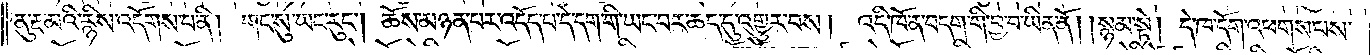ནུ་རྔ་མའི་རྙིས་འདོགས་པ་ནི། གང་སུ་ཡང་རུང༌། ཆོས་མཉན་པར་འདོད་པ་དེ་དག་གི་ཡང་བར་ཆད་དུ་འགྱུར་བས། འདི་ཁོ་ན་བདག་གི་བྱ་བ་ཡིན་ནོ། །སྙམ་སྟེ། དེ་ཁ་དོག་འཕགས་པས་
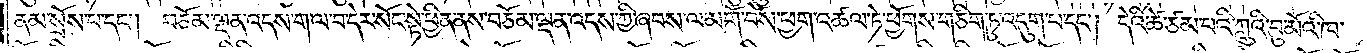ནམ་སྲོས་པ་དང༌། བཅོམ་ལྡན་འདས་ག་ལ་བ་དེར་སོང་སྟེ་ཕྱིན་ནས་བཅོམ་ལྡན་འདས་ཀྱི་ཞབས་ལ་མགོ་བོས་ཕྱག་འཚལ་ཏེ་ཕྱོགས་གཅིག་ཏུ་འདུག་པ་དང༌། དེའི་ཚེ་ཙམ་པའི་ཀླུའི་བུ་མོའི་ཁ་
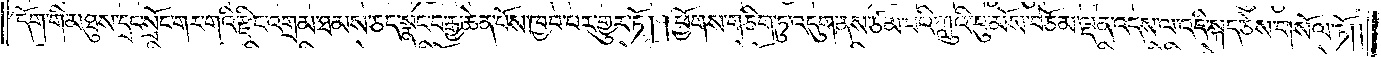དོག་གི་མཐུས་དྲང་སྲོང་གར་གའི་རྫིང་འགྲམ་ཐམས་ཅད་སྣང་བ་རྒྱ་ཆེན་པོས་ཁྱབ་པར་གྱུར་ཏོ། །ཕྱོགས་གཅིག་ཏུ་འདུག་ནས་ཙམ་པའི་ཀླུའི་བུ་མོས་བཅོམ་ལྡན་འདས་ལ་འདི་སྐད་ཅེས་གསོལ་ཏོ། །
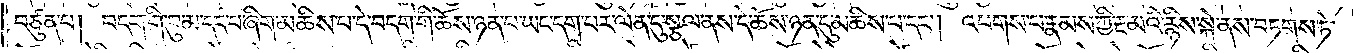བཙུན་པ། བདག་གི་བུ་མ་དད་པ་ཞིག་མཆིས་པ་དེ་བདག་གི་ཆོས་ཉན་པ་ཡང་དག་པར་ལེན་དུ་སྩལ་ནས་དེ་ཆོས་ཉན་དུ་མཆིས་པ་དང༌། འཕགས་པ་རྣམས་ཀྱི་རྔ་མའི་རྙིས་སྐེ་ནས་བཏགས་ཏེ་
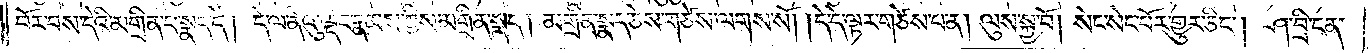བོར་བས་དེའི་མགྲིན་པ་སྣད་དེ། དེ་ལ་ནེའུ་ལྡང་རྣམས་ཀྱིས་མགྲིན་སྣད། མགྲིན་སྣད་ཅེས་གཙེས་ལགས་སོ། །དེ་དེ་ལྟར་གཙེས་པ་ན། ལུས་སྐྱ་བོ། སེང་སེང་པོར་གྱུར་ཅིང༌། ཤ་བྲི་ངན་
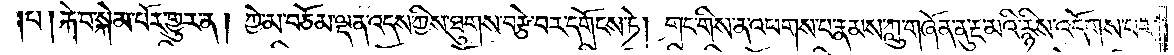པ། རྐེ་བ་སྐེམ་པོར་གྱུར་ན། ཀྱེ་མ་བཅོམ་ལྡན་འདས་ཀྱིས་ཐུགས་བརྩེ་བར་དགོངས་ཏེ། གང་གིས་ན་འཕགས་པ་རྣམས་ཀླུ་གཞོན་ནུ་རྔ་མའི་རྙིས་འདོགས་པར་
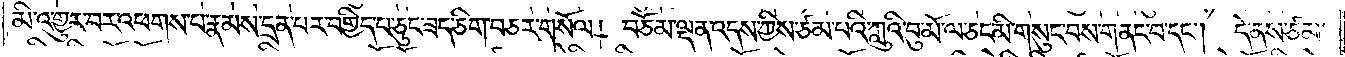མི་འགྱུར་བར་འཕགས་པ་རྣམས་དྲན་པར་བགྱིད་པ་ཅུང་ཟད་ཅིག་བཅར་གསོལ། བཅོམ་ལྡན་འདས་ཀྱིས་ཙམ་པའི་ཀླུའི་བུ་མོ་ལ་ཅང་མི་གསུང་བས་གནང་བ་དང༌། དེ་ནས་ཙམ་
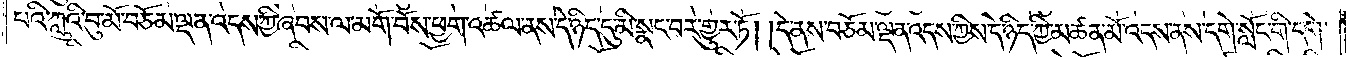པའི་ཀླུའི་བུ་མོ་བཅོམ་ལྡན་འདས་ཀྱི་ཞབས་ལ་མགོ་བོས་ཕྱག་འཚལ་ནས་དེ་ཉིད་དུ་མི་སྣང་བར་གྱུར་ཏོ། །དེ་ནས་བཅོམ་ལྡན་འདས་ཀྱིས་དེ་ཉིད་ཀྱི་མཚན་མོ་འདས་ནས་དགེ་སློང་གི་དགེ་
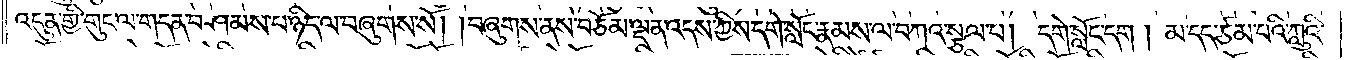འདུན་གྱི་གུང་ལ་གདན་བཤམས་པ་ཉིད་ལ་བཞུགས་སོ། །བཞུགས་ནས་བཅོམ་ལྡན་འདས་ཀྱིས་དགེ་སློང་རྣམས་ལ་བཀའ་སྩལ་པ། དགེ་སློང་དག ། མ་དད་ཙམ་པའི་ཀླུའི་
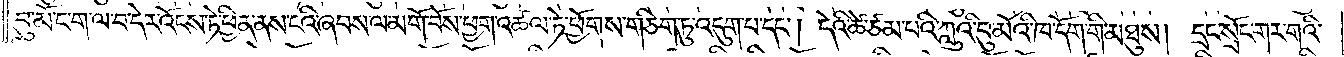བུ་མོ་ང་ག་ལ་བ་དེར་འོངས་ཏེ་ཕྱིན་ནས་ངའི་ཞབས་ལ་མགོ་བོས་ཕྱག་འཚལ་ཏེ་ཕྱོགས་གཅིག་ཏུ་འདུག་པ་དང༌། དེའི་ཚེ་ཙམ་པའི་ཀླུའི་བུ་མོའི་ཁ་དོག་གི་མཐུས། དྲང་སྲོང་གར་གའི་
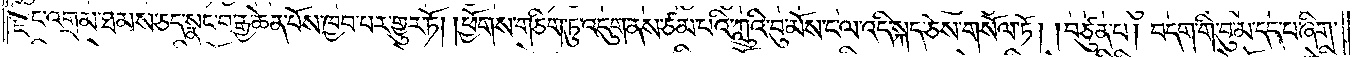རྫིང་འགྲམ་ཐམས་ཅད་སྣང་བ་རྒྱ་ཆེན་པོས་ཁྱབ་པར་གྱུར་ཏོ། །ཕྱོགས་གཅིག་ཏུ་འདུག་ནས་ཙམ་པའི་ཀླུའི་བུ་མོས་ང་ལ་འདི་སྐད་ཅེས་གསོལ་ཏོ། །བཙུན་པ། བདག་གི་བུ་མ་དད་པ་ཞིག་
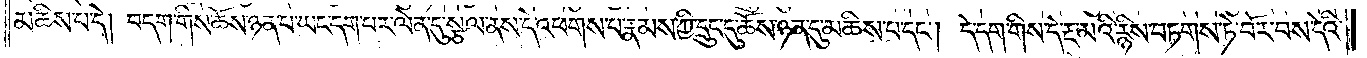མཆིས་པ་དེ། བདག་གིས་ཆོས་ཉན་པ་ཡང་དག་པར་ལེན་དུ་སྩལ་ནས་དེ་འཕགས་པ་རྣམས་ཀྱི་དྲུང་དུ་ཆོས་ཉན་དུ་མཆིས་པ་དང༌། དེ་དག་གིས་དེ་རྔ་མའི་རྙིས་བཏགས་ཏེ་བོར་བས་དེའི་
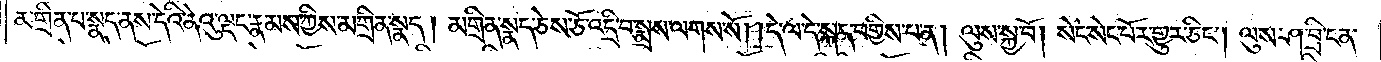མགྲིན་པ་སྣད་ནས་དེའི་ནེའུ་ལྡང་རྣམས་ཀྱིས་མགྲིན་སྣད། མགྲིན་སྣད་ཅེས་ཅོ་འདྲི་བ་སྨྲས་ལགས་སོ། །དེ་ལ་དེ་སྐད་བགྱིས་པ་ན། ལུས་སྐྱ་བོ། སེང་སེང་པོར་གྱུར་ཅིང༌། ལུས་ཤ་བྲི་ངན་
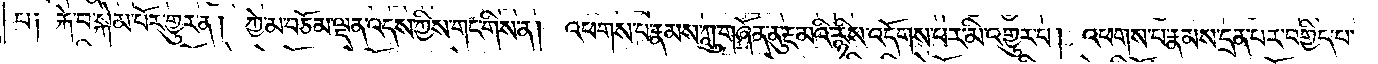པ༑ རྐེ་བ་སྐེམ་པོར་གྱུར་ན། ཀྱེ་མ་བཅོམ་ལྡན་འདས་ཀྱིས་གང་གིས་ན། འཕགས་པ་རྣམས་ཀླུ་གཞོན་ནུ་རྔ་མའི་རྙིས་འདོགས་པར་མི་འགྱུར་པ། འཕགས་པ་རྣམས་དྲན་པར་བགྱིད་པ་
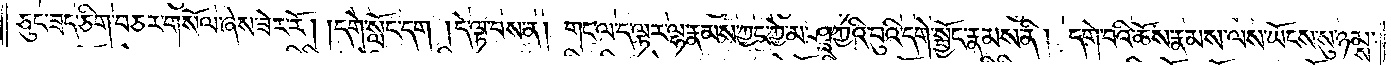ཅུང་ཟད་ཅིག་བཅར་གསོལ་ཞེས་ཟེར་རོ། །དགེ་སློང་དག །དེ་ལྟ་བས་ན། གང་ལ་ད་ལྟར་ལྷ་རྣམས་ཀྱང་ཀྱེ་མ་ཤཱཀྱའི་བུའི་དགེ་སྦྱོང་རྣམས་ནི། དགེ་བའི་ཆོས་རྣམས་ལས་ཡོངས་སུ་ཉམས་
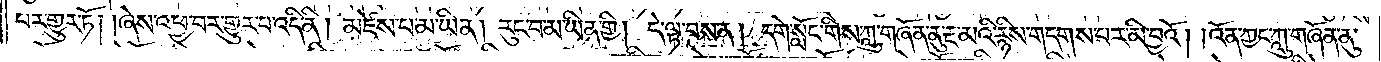པར་གྱུར་ཏོ། །ཞེས་འཕྱ་བར་གྱུར་པ་འདི་ནི། མཛེས་པ་མ་ཡིན། རུང་བ་མ་ཡིན་གྱི། དེ་ལྟ་བས་ན། དགེ་སློང་གིས་ཀླུ་གཞོན་ནུ་རྔ་མའི་རྙིས་གདགས་པར་མི་བྱའོ། །འོན་ཀྱང་ཀླུ་གཞོན་ནུ་
